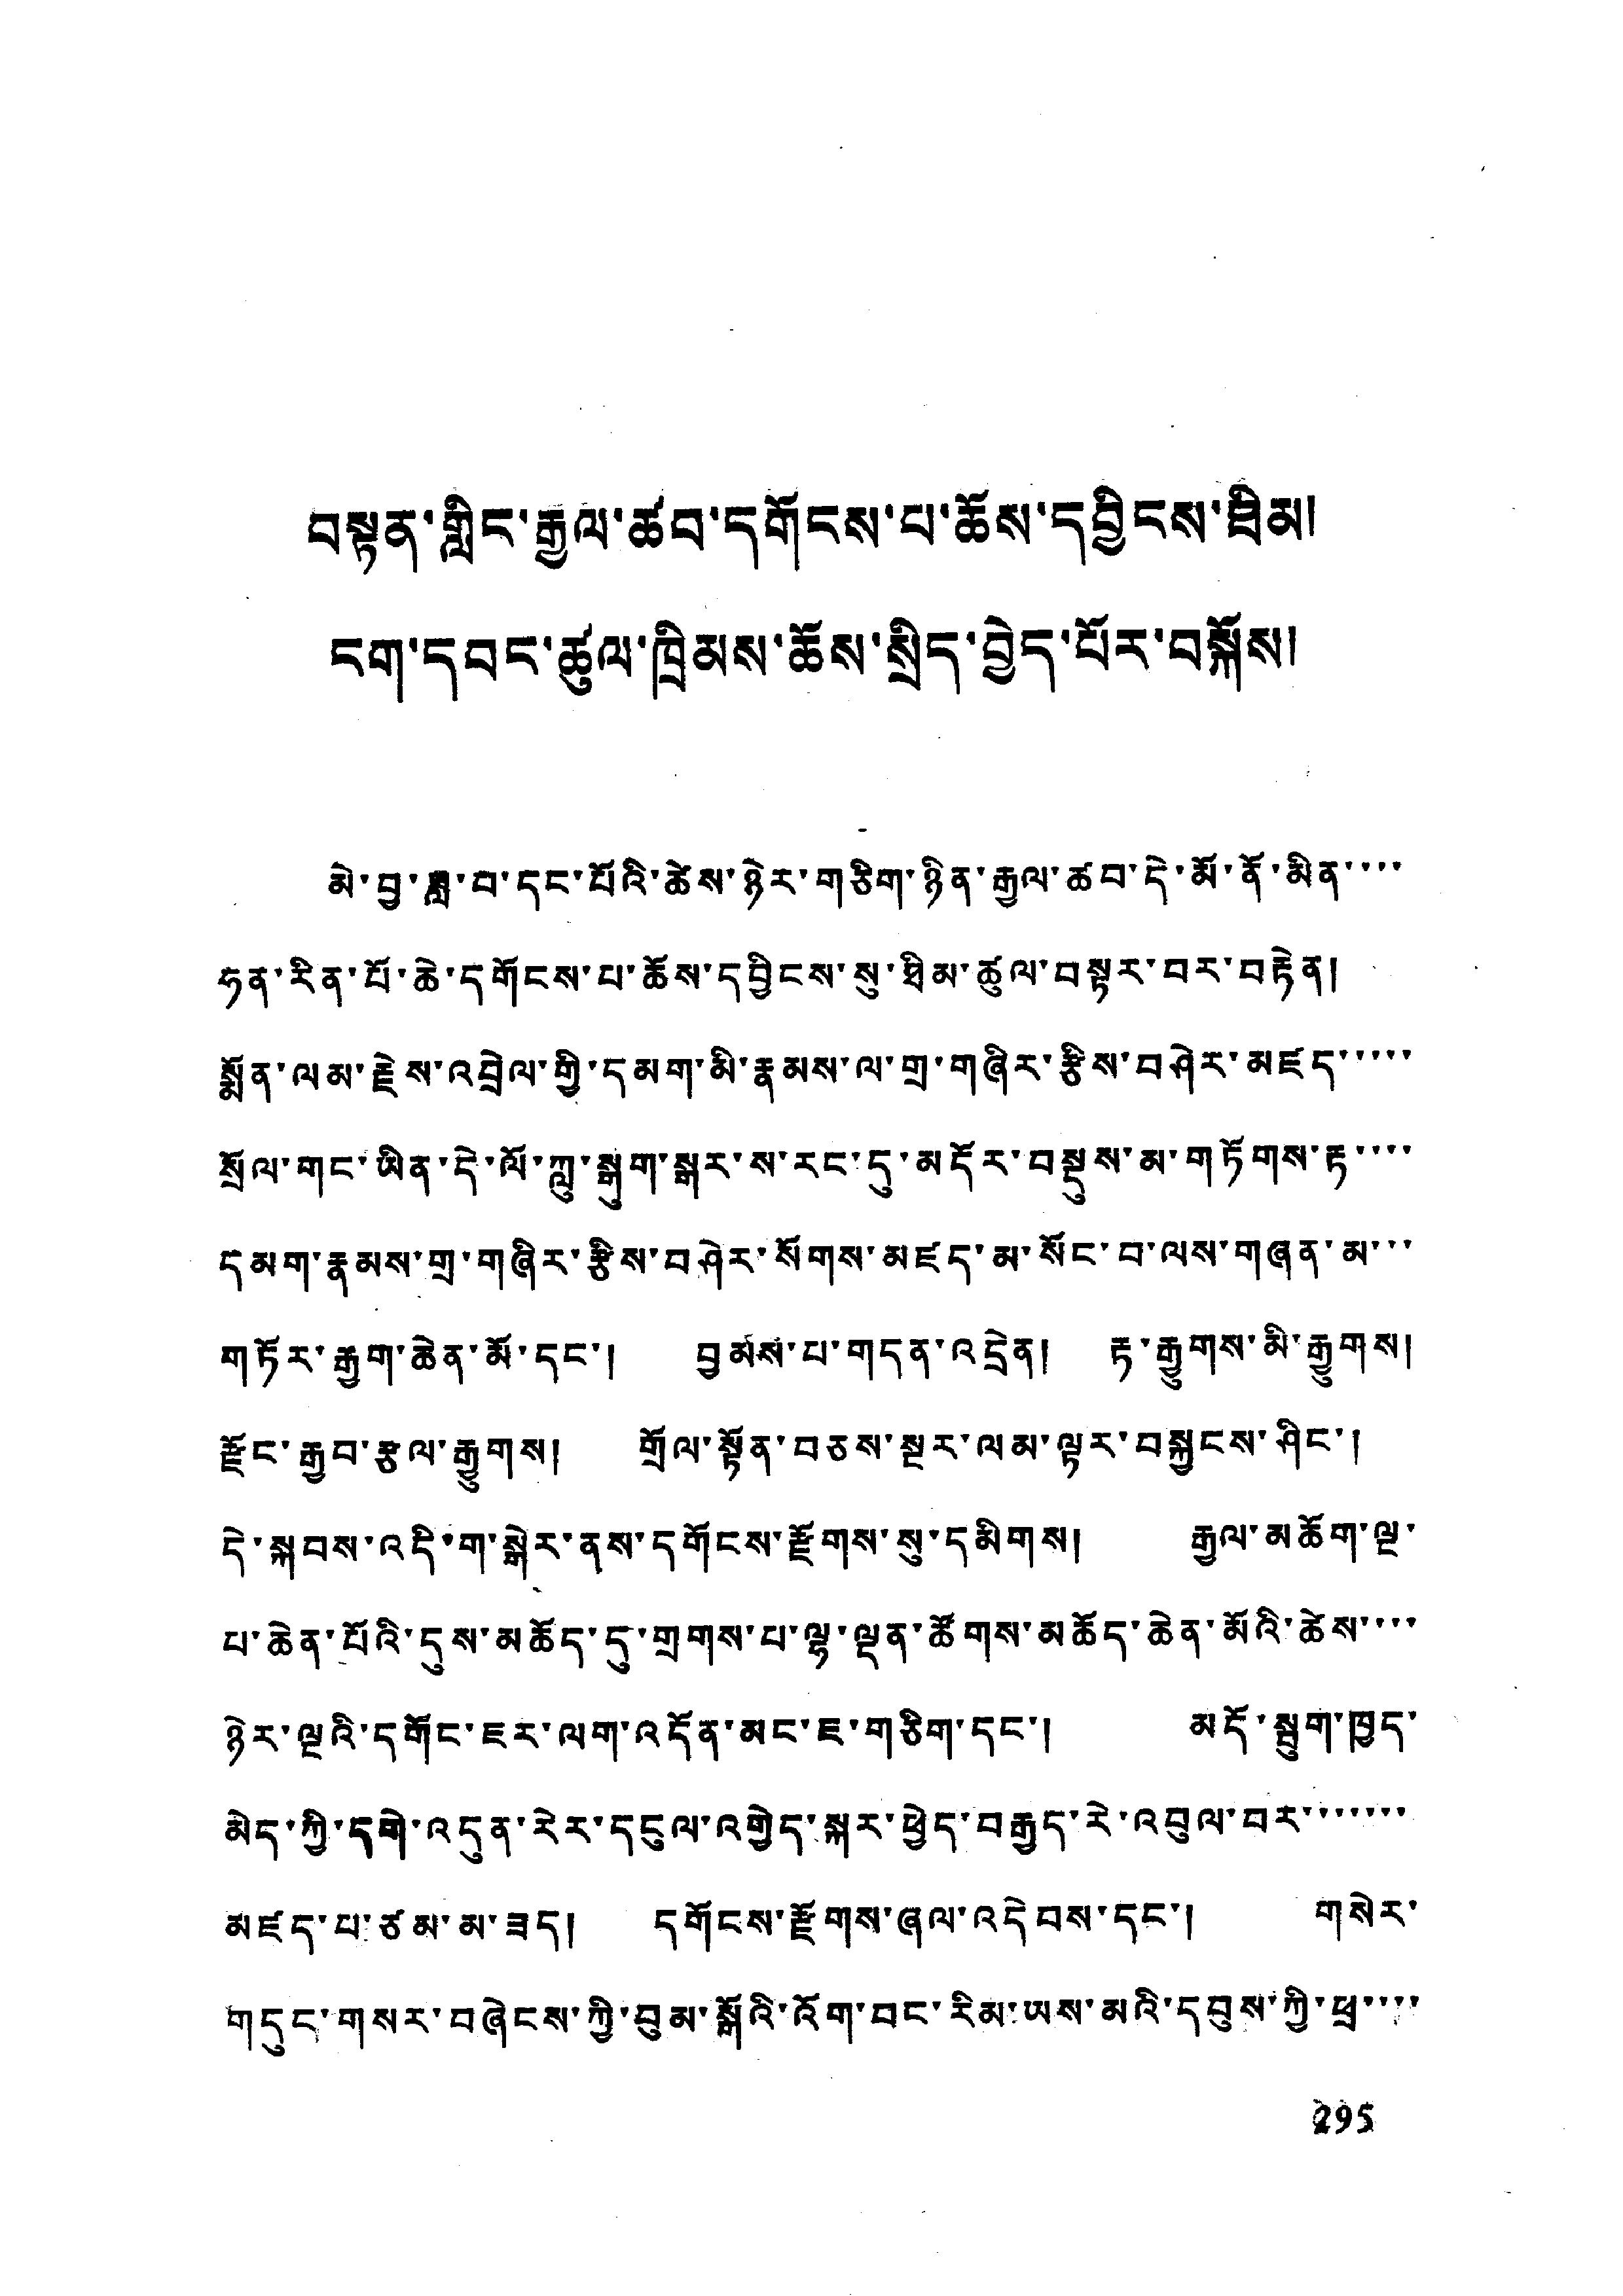བསྟན་གླིང་རྒྱལ་ཚབ་དགོངས་པ་ཆོས་དབྱིངས་ཐིམ།
ངག་དབང་ཚུལ་ཁྲིམས་ཆོས་སྲིད་བྱེད་པོར་བསྐོས།
མེ་བྱ་ཟླ་བ་དང་པོའི་ཚེས་ཉེར་གཅིག་ཉིན་རྒྱལ་ཚབ་དེ་མོ་ནོ་མིན་་་་
ཧན་རིན་པོ་ཆེ་དགོངས་པ་ཆོས་དབྱིངས་སུ་ཐིམ་ཚུལ་བསྟར་བར་བརྟེན།
སྨོན་ལམ་རྗེས་འབྲེལ་གྱི་དམག་མི་རྣམས་ལ་གྲ་གཞིར་རྩིས་བཤེར་མཛད་་་་་
སྲོལ་གང་ཡིན་དེ་ལོ་ཀླུ་སྒུག་སྒར་ས་རང་དུ་མདོར་བསྡུས་མ་གཏོགས་རྟ་་་་
དམག་རྣམས་གྲ་གཞིར་རྩིས་བཤེར་སོགས་མཛད་མ་སོང་བ་ལས་གཞན་མ་་་
གཏོར་རྒྱག་ཆེན་མོ་དང་། བྱམས་པ་གདན་འདྲེན། རྟ་རྒྱུགས་མི་རྒྱུགས།
རྫོང་རྒྱབ་རྩལ་རྒྱུགས། གྲོལ་སྟོན་བཅས་སྔར་ལམ་ལྟར་བསྐྱངས་ཤིང་།
དེ་སྐབས་འདི་ག་སྒེར་ནས་དགོངས་རྫོགས་སུ་དམིགས། རྒྱལ་མཆོག་ལྔ་
པ་ཆེན་པོའི་དུས་མཆོད་དུ་གྲགས་པ་ལྷ་ལྡན་ཚོགས་མཆོད་ཆེན་མོའི་ཚེས་་་་
ཉེར་ལྔའི་དགོང་ཇར་ལག་འདོན་མང་ཇ་གཅིག་དང་། མདོ་སྦུག་ཁྱད་
མེད་ཀྱི་དགེ་འདུན་རེར་དངུལ་འགྱེད་སྐར་ཕྱེད་བརྒྱད་རེ་འབུལ་བར་་་་་་་
མཛད་པ་ཙམ་མ་ཟད། དགོངས་རྫོགས་ཞལ་འདེབས་དང་། གསེར་
གདུང་གསར་བཞེངས་ཀྱི་བུམ་སྒོའི་འོག་བང་རིམ་ཡས་མའི་དབུས་ཀྱི་ཕྲ་་་་
295
